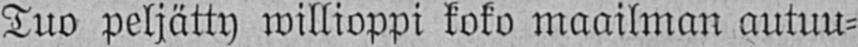Tuo peljätty willioppi koko maailman autuu-
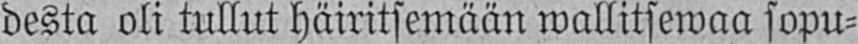desta oli tullut häiritsemään wallitsewaa sopu-
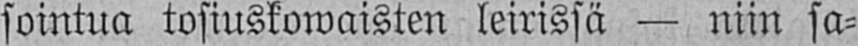sointua tosiuskowaisten leirissä — niin sa-
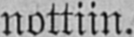nottiin.
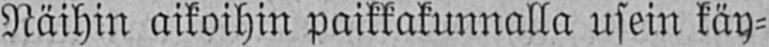Näihin aikoihin paikkakunnalla usein käy-
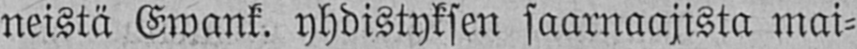neistä Ewank. yhdistyksen saarnaajista mai-
